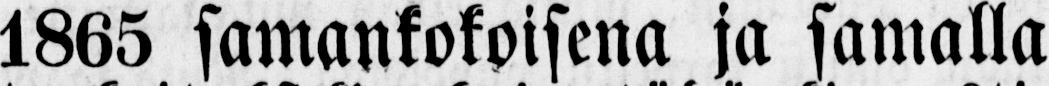1865 samankokoisena ja samalla
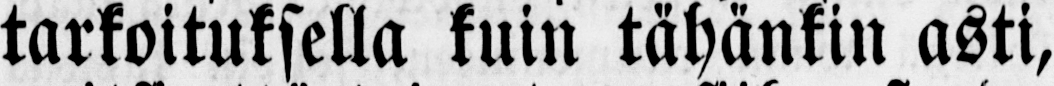tarkoituksella kuin tähänkin asti,
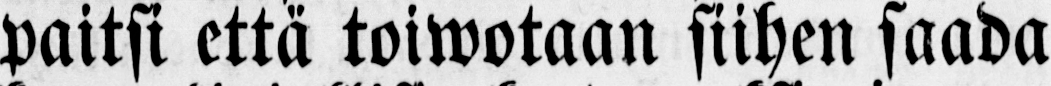paitsi että toiwotaan siihen saada
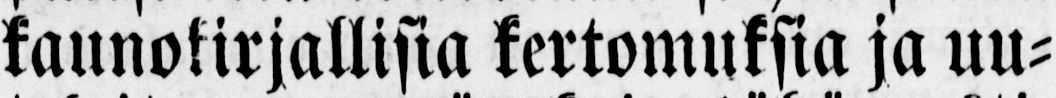kaunokirjallisia kertomuksia ja uu-
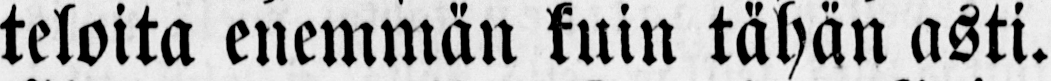teloita enemmän kuin tähän asti.
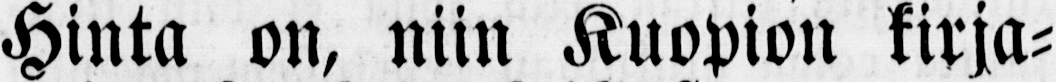Hinta on, niin Kuopion kirja-
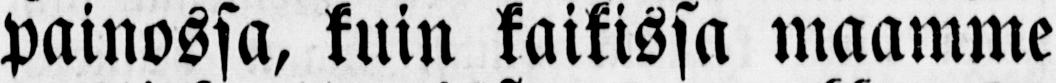painossa, kuin kaikissa maamme
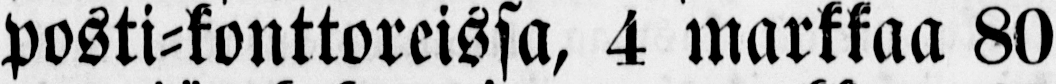posti-konttoreissa, 4 markkaa 80
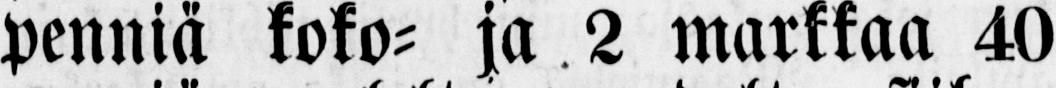penniä koko- ja 2 markkaa 40
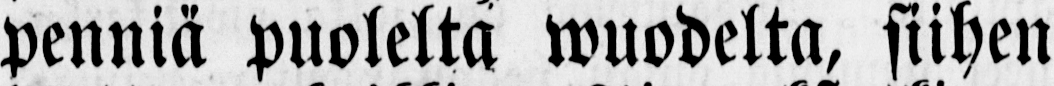penniä puolelta wuodelta, siihen
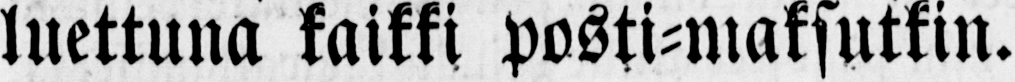luettuna kaikki posti-maksutkin.
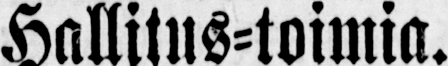Hallitus-toimia.
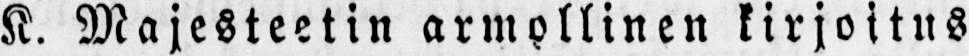K. Majesteetin armollinen kirjoitus
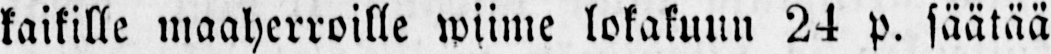kaikille maaherroille wiime lokakuun 24 p. säätää
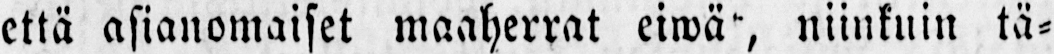että asianomaiset maaherrat eiwä-, niinkuin tä-
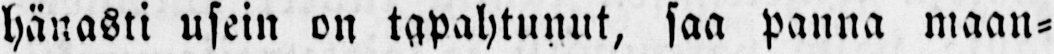hänasti usein on tapahtunut, saa panna maan-
